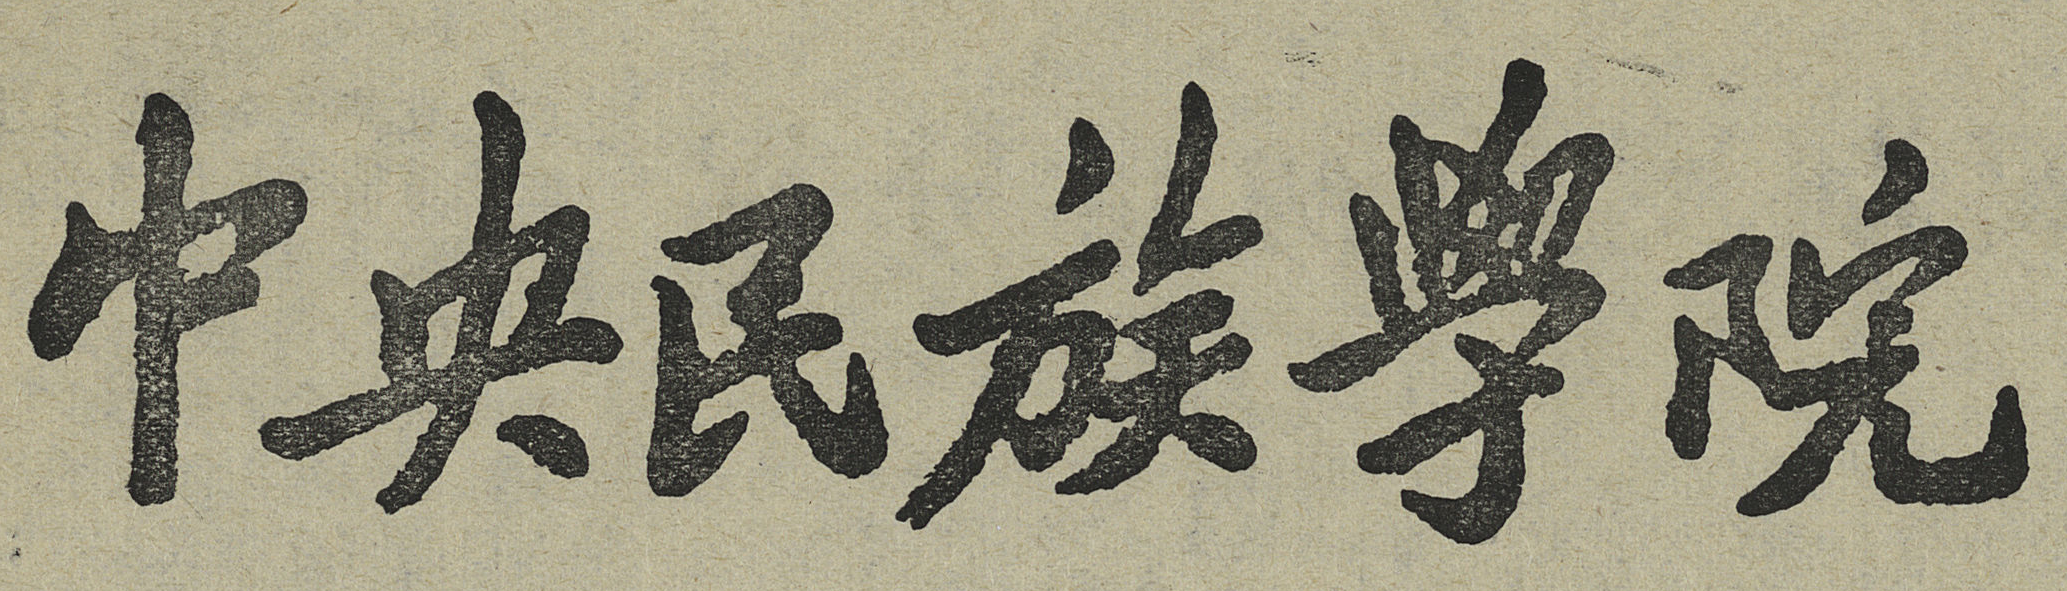中央民族學院
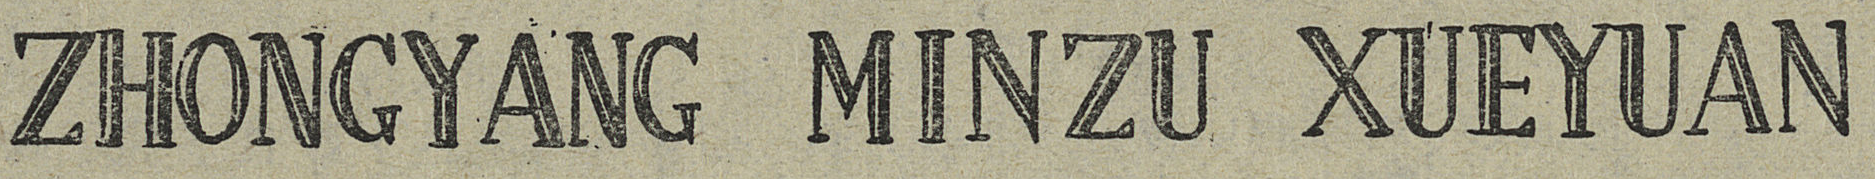ZHONGYANG MINZU XUEYUAN
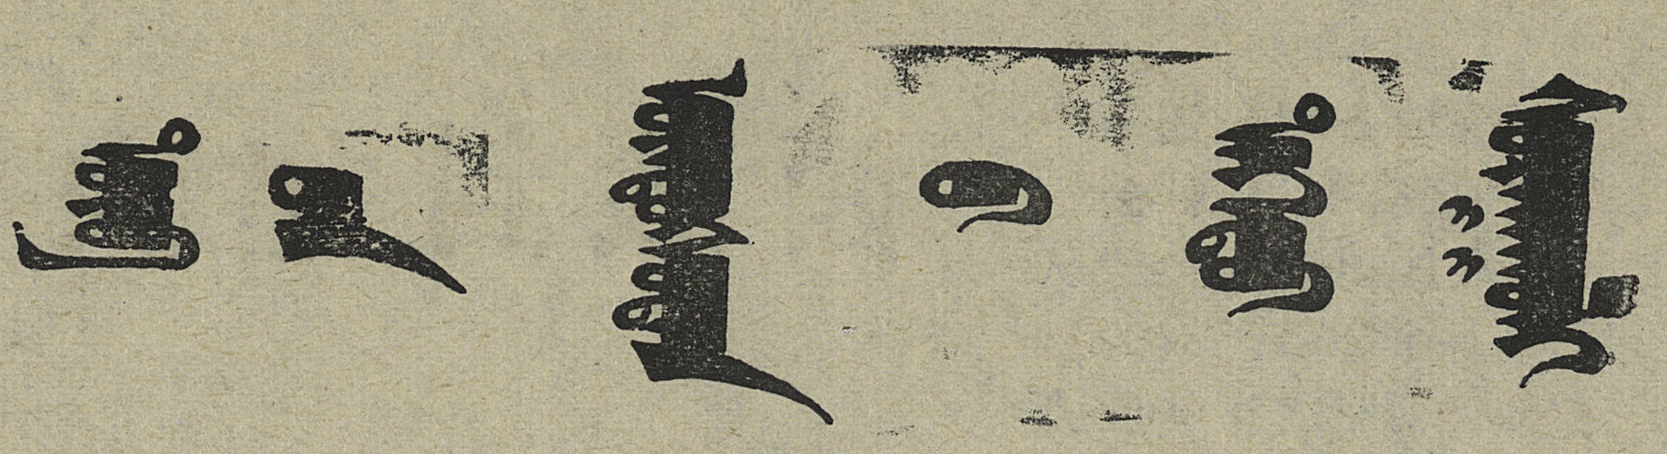ᠲᠥᠪ ᠦᠨ ᠦᠨᠳᠦᠰᠦᠲᠡᠨ ᠦ ᠳᠡᠭᠡᠳᠦ ᠰᠤᠷᠭᠠᠭᠤᠯᠢ
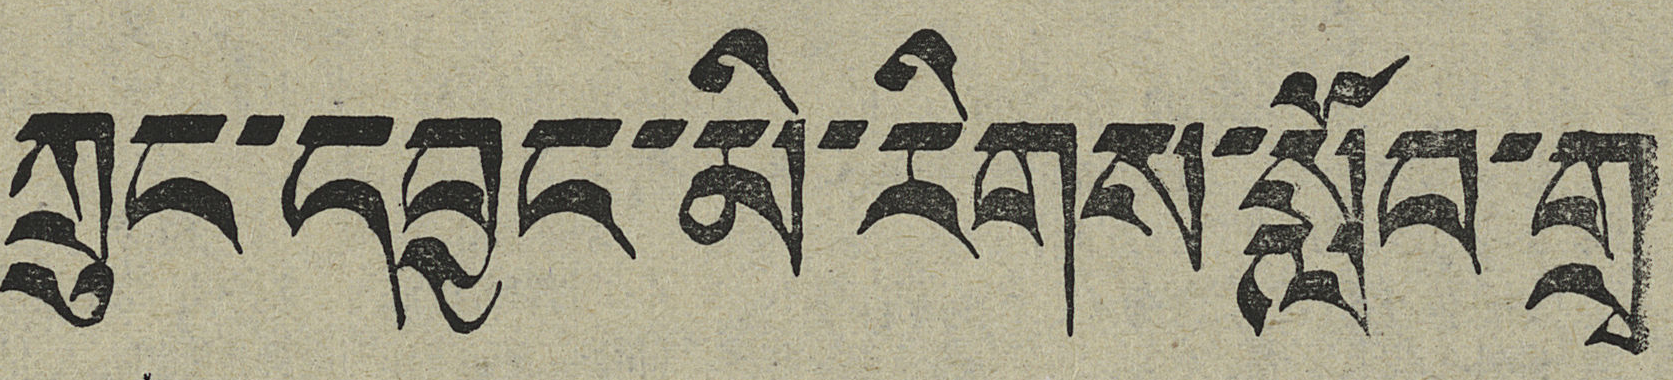ཀྲུང་དབྱང་མི་རིགས་སློབ་གྲྭ
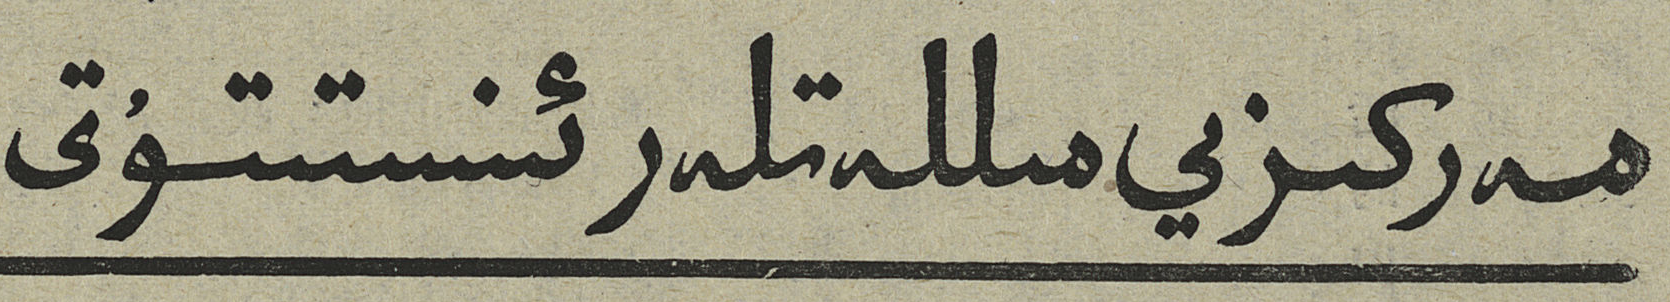مەركىزىي مىللەتلەر ئىنستىتۇتى
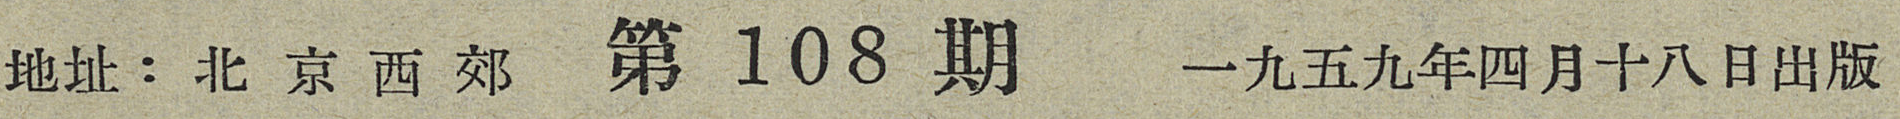地址：北 京 西 郊 第 108 期 一九五九年四月十八日出版
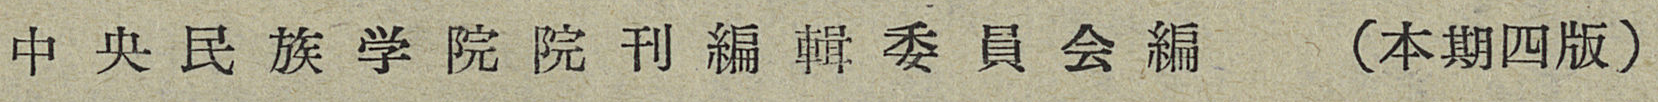中央民族学院院刊編輯委員會編 （本期四版）
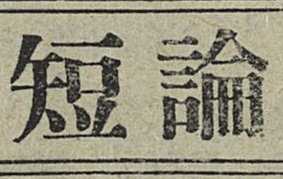短論
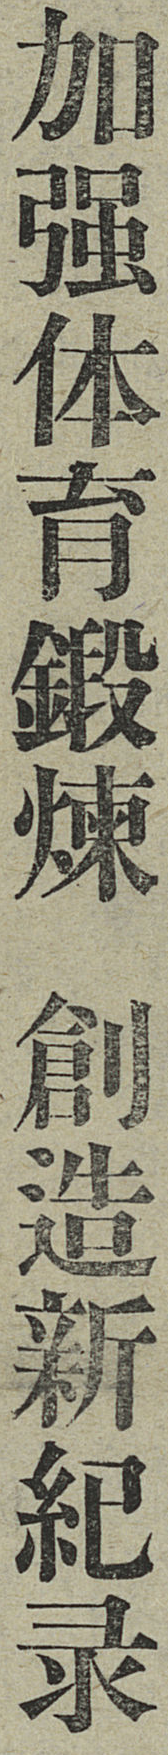加強体育鍛煉 創造新紀录
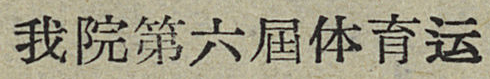我院第六屆体育运
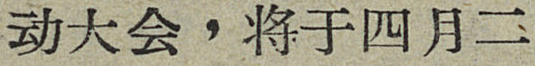动大会，将于四月二
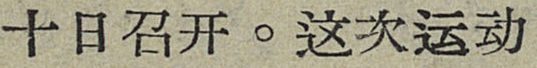十日召开。这次运动
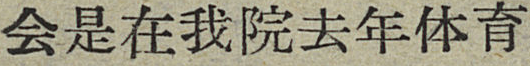会是在我院去年体育
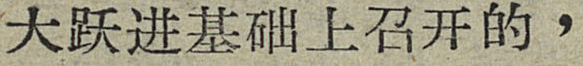大跃进基础上召开的，
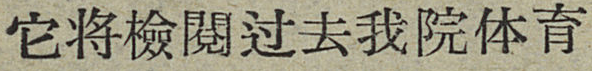他将檢閱过去我院体育
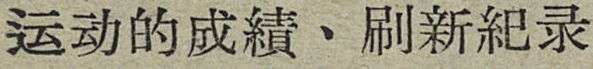运动的成績、刷新紀录
